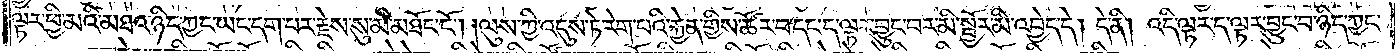ལྟར་ཕྱི་མའི་མཐའ་ཉིད་ཀྱང་ཡང་དག་པར་རྗེས་སུ་མི་མཐོང་ངོ༌། །ལུས་ཀྱི་འདུས་ཏེ་རེག་པའི་རྐྱེན་གྱིས་ཚོར་བ་དང་ད་ལྟར་བྱུང་བར་མི་སྦྱོར་མི་འབྱེད་དེ། དེ་ནི། འདི་ལྟར་ད་ལྟར་བྱུང་བ་ཉིད་ཀྱང་
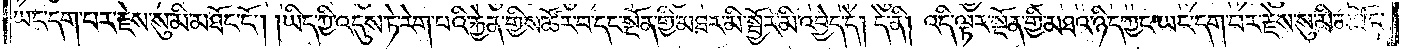ཡང་དག་པར་རྗེས་སུ་མི་མཐོང་ངོ༌། །ཡིད་ཀྱི་འདུས་ཏེ་རེག་པའི་རྐྱེན་གྱིས་ཚོར་བ་དང་སྔོན་གྱི་མཐར་མི་སྦྱོར་མི་འབྱེད་དེ། དེ་ནི། འདི་ལྟར་སྔོན་གྱི་མཐའ་ཉིད་ཀྱང་ཡང་དག་པར་རྗེས་སུ་མི་མཐོང་
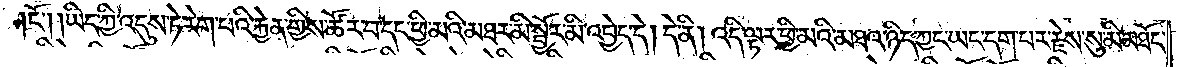ངོ༌། །ཡིད་ཀྱི་འདུས་ཏེ་རེག་པའི་རྐྱེན་གྱིས་ཚོར་བ་དང་ཕྱི་མའི་མཐར་མི་སྦྱོར་མི་འབྱེད་དེ། དེ་ནི། འདི་ལྟར་ཕྱི་མའི་མཐའ་ཉིད་ཀྱང་ཡང་དག་པར་རྗེས་སུ་མི་མཐོང་
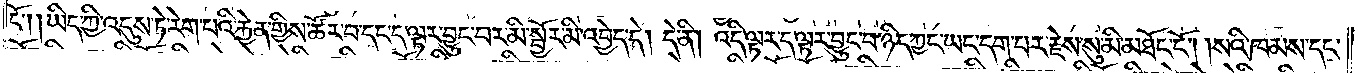ངོ༌། །ཡིད་ཀྱི་འདུས་ཏེ་རེག་པའི་རྐྱེན་གྱིས་ཚོར་བ་དང་ད་ལྟར་བྱུང་བར་མི་སྦྱོར་མི་འབྱེད་དེ། དེ་ནི། འདི་ལྟར་ད་ལྟར་བྱུང་བ་ཉིད་ཀྱང་ཡང་དག་པར་རྗེས་སུ་མི་མཐོང་ངོ༌། །སའི་ཁམས་དང་
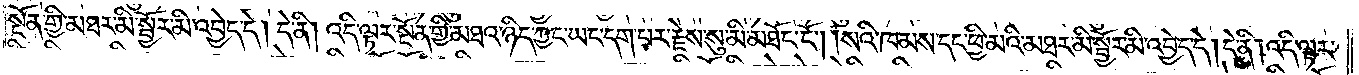སྔོན་གྱི་མཐར་མི་སྦྱོར་མི་འབྱེད་དེ། དེ་ནི། འདི་ལྟར་སྔོན་གྱི་མཐའ་ཉིད་ཀྱང་ཡང་དག་པར་རྗེས་སུ་མི་མཐོང་ངོ༌། །སའི་ཁམས་དང་ཕྱི་མའི་མཐར་མི་སྦྱོར་མི་འབྱེད་དེ། དེ་ནི། འདི་ལྟར་
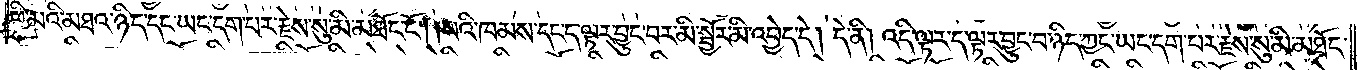ཕྱི་མའི་མཐའ་ཉིད་དང་ཡང་དག་པར་རྗེས་སུ་མི་མཐོང་ངོ༌། །སའི་ཁམས་དང་ད་ལྟར་བྱུང་བར་མི་སྦྱོར་མི་འབྱེད་དེ། དེ་ནི། འདི་ལྟར་ད་ལྟར་བྱུང་བ་ཉིད་ཀྱང་ཡང་དག་པར་རྗེས་སུ་མི་མཐོང་
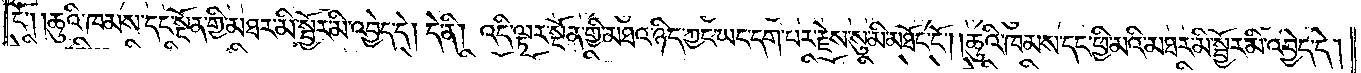ངོ༌། །ཆུའི་ཁམས་དང་སྔོན་གྱི་མཐར་མི་སྦྱོར་མི་འབྱེད་དེ། དེ་ནི། འདི་ལྟར་སྔོན་གྱི་མཐའ་ཉིད་ཀྱང་ཡང་དག་པར་རྗེས་སུ་མི་མཐོང་ངོ༌། །ཆུའི་ཁམས་དང་ཕྱི་མའི་མཐར་མི་སྦྱོར་མི་འབྱེད་དེ།
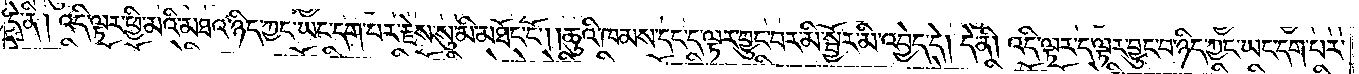དེ་ནི། འདི་ལྟར་ཕྱི་མའི་མཐའ་ཉིད་ཀྱང་ཡང་དག་པར་རྗེས་སུ་མི་མཐོང་ངོ༌། །ཆུའི་ཁམས་དང་ད་ལྟར་བྱུང་བར་མི་འབྱེད་དེ། དེ་ནི། འདི་ལྟར་ད་ལྟར་བྱུང་བ་ཉིད་ཀྱང་ཡང་དག་པར་
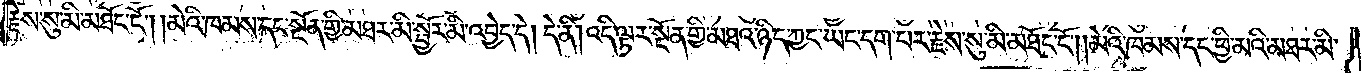རྗེས་སུ་མི་མཐོང་ངོ༌། །མེའི་ཁམས་དང་སྔོན་གྱི་མཐར་མི་སྦྱོར་མི་འབྱེད་དེ། དེ་ནི། འདི་ལྟར་སྔོན་གྱི་མཐའ་ཉིད་ཀྱང་ཡང་དག་པར་རྗེས་སུ་མི་མཐོང་ངོ༌། །མེའི་ཁམས་དང་ཕྱི་མའི་མཐར་མི་
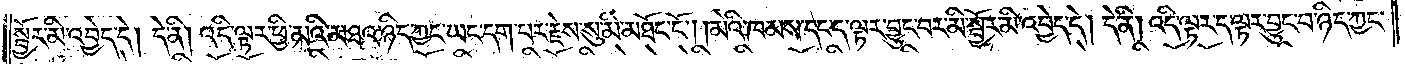སྦྱོར་མི་འབྱེད་དེ། དེ་ནི། འདི་ལྟར་ཕྱི་མའི་མཐའ་ཉིད་ཀྱང་ཡང་དག་པར་རྗེས་སུ་མི་མཐོང་ངོ༌། །མེའི་ཁམས་དང་ད་ལྟར་བྱུང་བར་མི་སྦྱོར་མི་འབྱེད་དེ། དེ་ནི། འདི་ལྟར་ད་ལྟར་བྱུང་བ་ཉིད་ཀྱང་
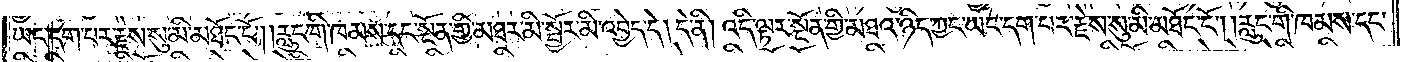ཡང་དག་པར་རྗེས་སུ་མི་མཐོང་ངོ༌། །རླུང་གི་ཁམས་དང་སྔོན་གྱི་མཐར་མི་སྦྱོར་མི་འབྱེད་དེ། དེ་ནི། འདི་ལྟར་སྔོན་གྱི་མཐའ་ཉིད་ཀྱང་ཡང་དག་པར་རྗེས་སུ་མི་མཐོང་ངོ༌། །རླུང་གི་ཁམས་དང་
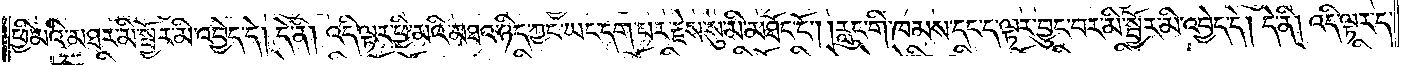ཕྱི་མའི་མཐར་མི་སྦྱོར་མི་འབྱེད་དེ། དེ་ནི། འདི་ལྟར་ཕྱི་མའི་མཐའ་ཉིད་ཀྱང་ཡང་དག་པར་རྗེས་སུ་མི་མཐོང་ངོ༌། །རླུང་གི་ཁམས་དང་ད་ལྟར་བྱུང་བར་མི་སྦྱོར་མི་འབྱེད་དེ། དེ་ནི། འདི་ལྟར་ད་
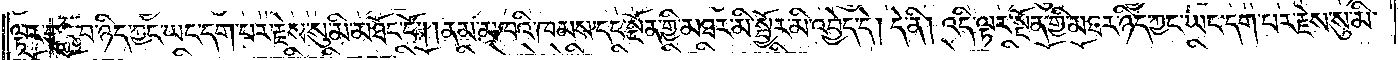ལྟར་བྱུང་བ་ཉིད་ཀྱང་ཡང་དག་པར་རྗེས་སུ་མི་མཐོང་ངོ༌། །ནམ་མཁའི་ཁམས་དང་སྔོན་གྱི་མཐར་མི་སྦྱོར་མི་འབྱེད་དེ། དེ་ནི། འདི་ལྟར་སྔོན་གྱི་མཐར་ཉིད་ཀྱང་ཡང་དག་པར་རྗེས་སུ་མི་
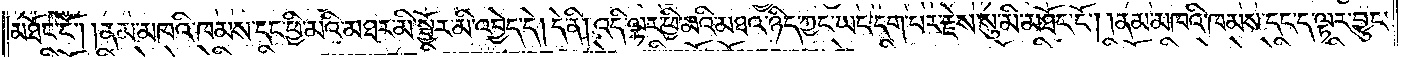མཐོང་ངོ༌། །ནམ་མཁའི་ཁམས་དང་ཕྱི་མའི་མཐར་མི་སྦྱོར་མི་འབྱེད་དེ། དེ་ནི། འདི་ལྟར་ཕྱི་མའི་མཐའ་ཉིད་ཀྱང་ཡང་དག་པར་རྗེས་སུ་མི་མཐོང་ངོ༌། །ནམ་མཁའི་ཁམས་དང་ད་ལྟར་བྱུང་
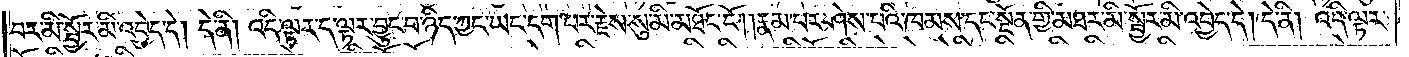བར་མི་སྦྱོར་མི་འབྱེད་དེ། དེ་ནི། འདི་ལྟར་ད་ལྟར་བྱུང་བ་ཉིད་ཀྱང་ཡང་དག་པར་རྗེས་སུ་མི་མཐོང་ངོ༌། །རྣམ་པར་ཤེས་པའི་ཁམས་དང་སྔོན་གྱི་མཐར་མི་སྦྱོར་མི་འབྱེད་དེ། དེ་ནི། འདི་ལྟར་
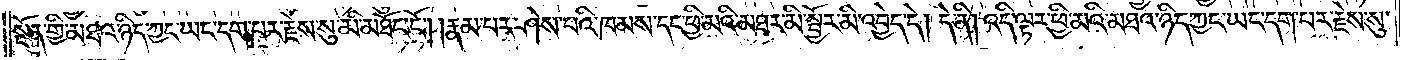སྔོན་གྱི་མཐའ་ཉིད་ཀྱང་ཡང་དག་པར་རྗེས་སུ་མི་མཐོང་ངོ༌། །རྣམ་པར་ཤེས་པའི་ཁམས་དང་ཕྱི་མའི་མཐར་མི་སྦྱོར་མི་འབྱེད་དེ། དེ་ནི། འདི་ལྟར་ཕྱི་མའི་མཐའ་ཉིད་ཀྱང་ཡང་དག་པར་རྗེས་སུ་
